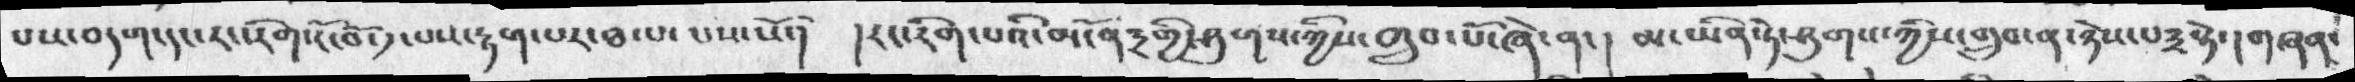པས་བདག་དང་རང་རིག་ངོ་བོ་༡་པས་རྟག་པར་ཐལ་པ་པས་སོ་།  རང་རིག་པའི་མངོན༣གྱི་ཤུགས་ཀྱིས་གྲུབ་པོ་ཞེ་ན་།  མ་ཡིན་ཏེ་ཤུགས་ཀྱིས་གྲུབ་ན་ཉེས་པ༣སྟེ་།གཞན་
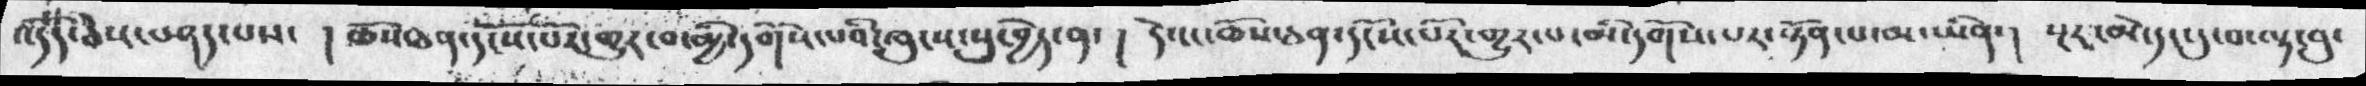འདོད་ཅེས་བཤད་པས་  །ཆོསཅན་དངོས་པོར་གྱུར་བ་མྱི་དགོས་པའི་ཁུངས་སུ་བྱེད་ན་  །  དེ་ངང་ཆོས་ཅན་དངོས་པོར་གྱུར་པ་མི་དགོས་པར་སྟོན་པ་མ་ཡིན་།  སྔར་མེ་དང་དུ་བ་ལྟ་བུ་
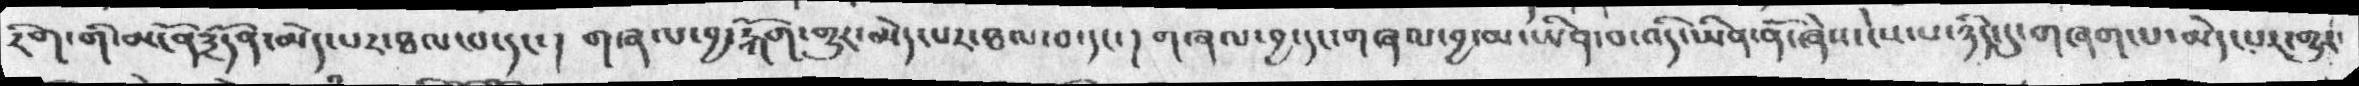རིག་གི་མངོན༣དོན་མེད་པར་ཐལ་པ་དང་།  གཞལ་བྱ་རྐོག་གྱུར་མེད་པར་ཐལ་བ་དང་། གཞལ་བྱ་དང་གཞལ་བྱ་མ་ཡིན་བ་འདི་ཡིན་ནོ་ཞེས་ངེས་པ་ཉིད་དུ་གཞག་པ་མེད་པར་གྱུར་
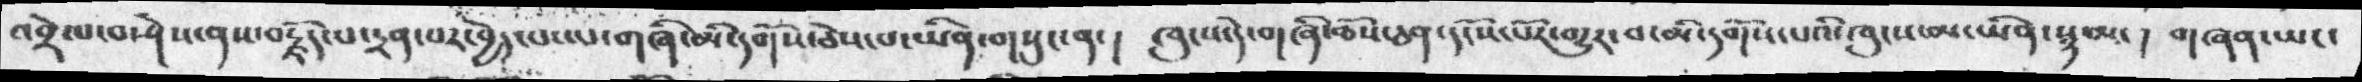འབྲེལ་བ་ཤེས་ནས་བརྗོད་པ་དྲན་པར་བྱེད་པ་ལ་གཞི་མི་དགོས་ཅེས་པ་ཡིན་གསུང་ན་།  ཁུངས་དེ་གཞི་ཆོས་ཅན་དངོས་པོར་གྱུར་བ་མི་དགོས་པའི་ཁུངས་མ་ཡིན་སྙམ་།  གཞན་ཡང་
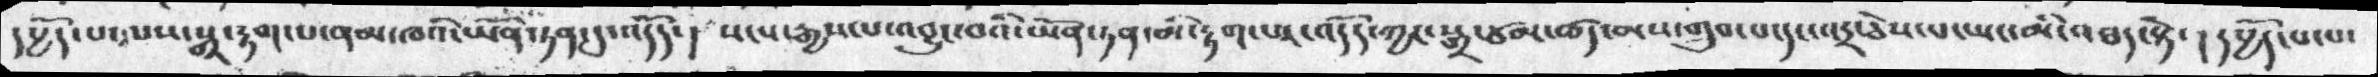དཔྱོད་པ་ལས་སྒྲ་རྟག་པ་ནམ་མཁའི་ཡོན་ཏན་དུ་འདོད་།  སངས་རྒྱས་པ་འབྱུང་བའི་ཡོན་ཏན་མི་རྟག་པར་འདོད་ཀྱང་སྒྲ་ཙམ་ཚད་མས་གྲུབ་པ་དང་འདྲ་ཅེས་པ་ཡང་མི་འཐད་སྟེ་། དཔྱོད་པ་པ་
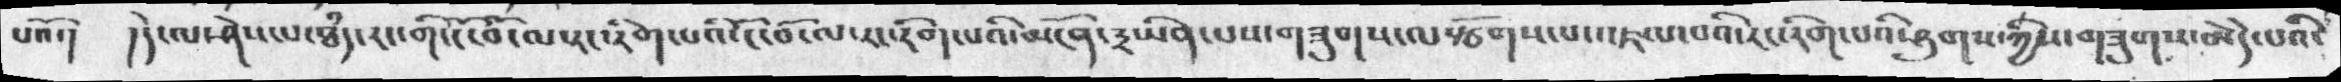པའོ་།  །དེ་ལ་ཤེས་པ་ཐཾད་རང་གི་ངོ་བོ་ལ་རང་རིག་པའི་ངོ་བོ་ལ་རང་རིག་པའི་མངོན་༣ཡིན་པས་གཟུགས་ལསྩོགས་པ་འཇལ་བའི་རང་རིག་པའི་ཤུགས་ཀྱིས་གཟུགས་མེདེ་པའི་
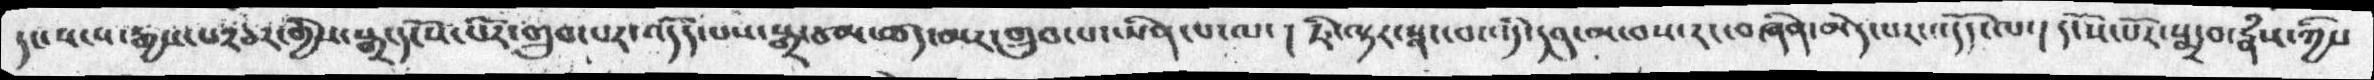རང་སངས་རྒྱས་པ༢ཅར་གྱིས་སྒྲ་དངོས་པོར་གྲུབ་པར་འདོད་པས་སྒྲ་ཙམ་ཚད་མར་གྲུབ་པ་ཡིན་པ་ལ་།  རི་ལྟར་སྣང་བ་འདི་དབུ་མ་བས་རང་བཞིན་མེད་པར་འདོད་ལ་།དངོས་པོར་སྨྲ་བ་རྣཾས་ཀྱིས
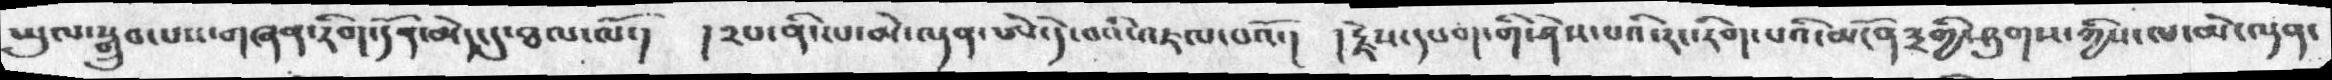ཡུལ་སྒྲུབ་པས་གཞན་རིག་དོན་མེད་དུ་ཐལ་ལོ་།  །༢པ་ནི་ལ་མེ་ལྡན་ཨེ་དེ་བའི་འཇལ་བའོ་།  །རྗེས་དཔག་གི་ཤེས་པའི་རང་རིག་པའི་མངོན་༣གྱི་ཤུགས་ཀྱིས་ལ་མེ་ལྡན་
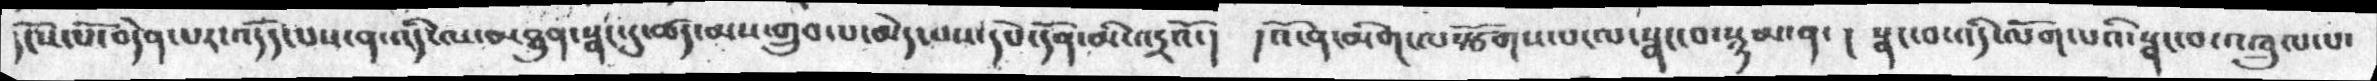དངོས་པོ་བདེན་པར་འདོད་པས་ན་འདི་ལ་མཐུན་སྣང་དུ་ཚད་མས་གྲུབ་པ་མེད་པས་དཔེ་དོན་མི་འདྲའོ་།  །འོ་ན་མིག་ལསྩོགས་པ་ལ་སྣང་བ་སྙམ་ན་།  སྣང་བ་འདི་ལོག་པའི་སྣང་བ་འཁྲུལ་པ་
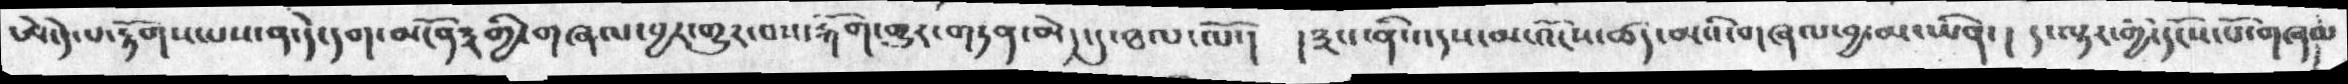ཨེ་དེ་པ་རྟོགས་པས་ན་དེ་དག་མངོན༣གྱི་གཞལ་བྱར་གྱུར་བས་རྐོག་གྱུར་གཏན་མེད་དུ་ཐལ་ལོ་།  །༣པ་ནི་འདས་མ་འོངས་ཚད་མའི་གཞལ་བྱ་མ་ཡིན་།  ད་ལྟར་གྱི་དངོས་པོ་གཞལ
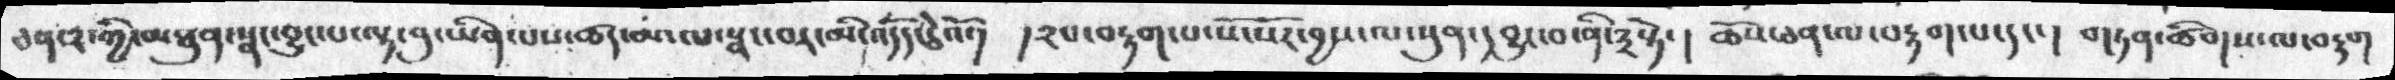ཅན་༢་ཀྱི་མཐུན་སྣང་བྱུང་པ་ལྟ་བུ་ཡིན་པས་ཚད་མ་ལ་སྣང་བར་མི་འདོད་ཅེའོ་།  །༢པ་བརྟག་པ་སོ་སོར་བྱས་ལ་སུན་དབྱུང་བ་ནི་༣སྟེ་།  ཆོས་ཅན་ལ་བརྟག་པ་དང་།  གཏན་ཚིགས་ལ་བརྟག
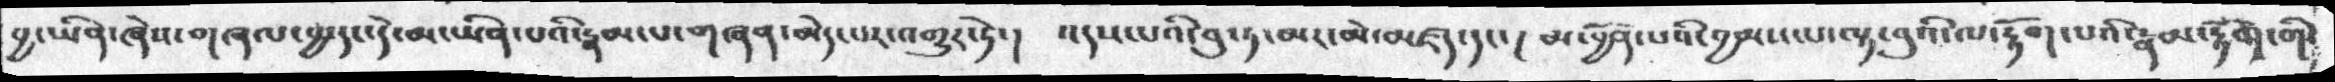བྱ་ཡིན་ཞེས་གཞལ་བྱ་དང་དེ་མ་ཡིན་པའི་རྣམ་པ་གཞན་མེདཔར་འགྱུར་ཏེ་།  འདས་པའི་བུ་ཏ་མར་མེ་མཛད་དང་།  མ་བྱོན་པའི་བྱམས་པ་ལྟ་བུའི་ལ་རྟོག་པའི་རྣམ་རྟོག་གི་
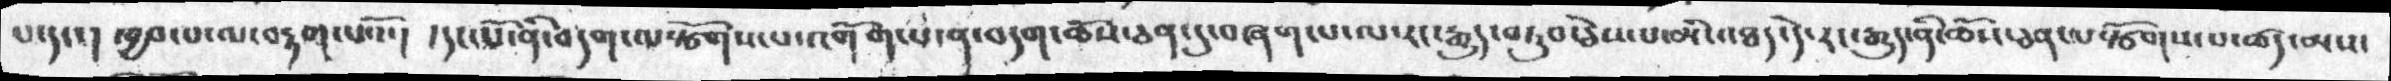པ་དང་། ཁྱབ་པ་ལ་བརྟག་པའོ་།  །དང་པོ་ནི་བདག་ལ་སྩོགས་པ་འགོག་པ་ན་བདག་ཆོས་ཅན་དུ་བཞག་པ་ལ་རང་རྒྱུད་བཏུབ་ཅེས་པ་མི་འཐད་དེ་རང་རྒྱུད་ནི་ཆོས་ཅན་ལསྩོགས་པ་ཚད་མས་
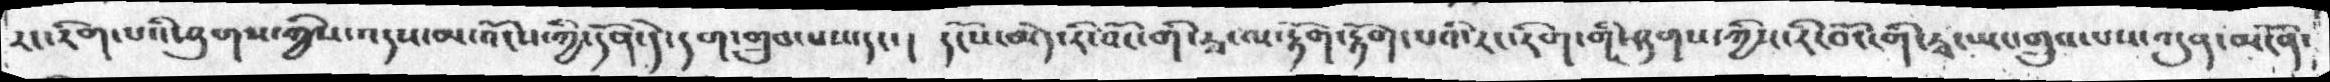རང་རིག་པའི་ཤུགས་ཀྱིས་འདས་མ་འོངས་ཀྱི་དོན་དེ་དག་གྲུབ་པས་དང་།  དངོས་མེད་རི་བོང་གི་རྭ་ལ་རྟོག་རྟོག་པའི་རང་རིག་གི་ཤུགས་ཀྱིས་རི་བོང་གི་རྭ་ཡང་གྲུབ་པས་ཀུན་མངོན་
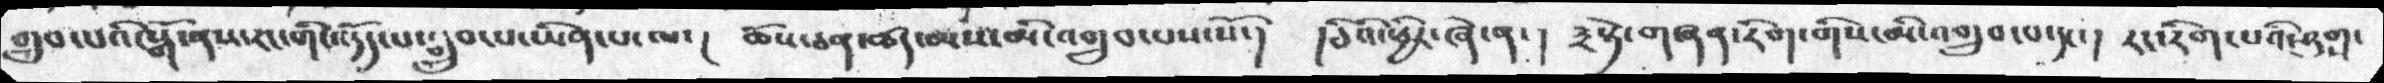གྲུབ་པའི་སྒོ་ནས་རང་གི་འདོད་པ་སྒྲུབ་པ་ཡིན་པ་ལ་།  ཆོས་ཅན་ཚད་མས་མི་འགྲུབ་པས་པོ་།  །ཅིའི་ཕྱིར་ཞེ་ན་།  ༣སྟེ་གཞན་རིག་གིས་མི་འགྲུབ་པ་དང་།  རང་རིག་པའི་ཤུགས་
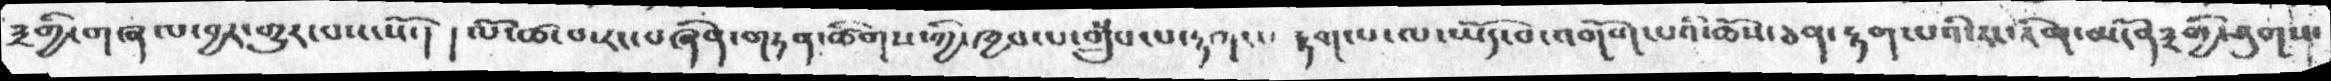༣གྱི་གཞལ་བྱར་གྱུར་བས་སོ་།  །ལོ་ཚ་པ་རང་བཞིན་གཏན་ཚིགས་ཀྱི་ཁྱབ་པ་གྲུཾབ་པ་རྟགས་རྟག་པ་ལ་ཡོད་བ་འགོག་པའི་ཆོས་ཅན་རྟག་པའི་རང་རིག་མངོན༣གྱི་ཤུགས་
